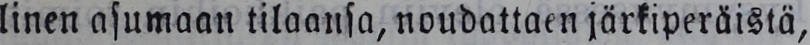linen asumaan tilaansa, noudattaen järkiperäistä,
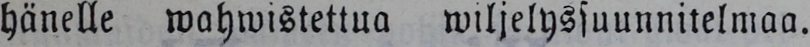hänelle wahwistettua wiljelyssuunnitelmaa.
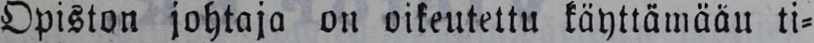Opiston johtaja on oikeutettu käyttämääu ti-
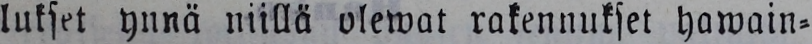lukset ynnä niillä olewat rakennukset hawain-
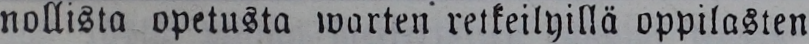nollista opetusta warten retkeilyillä oppilasten
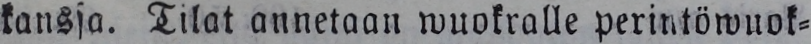kanssa. Tilat annetaan wuokralle perintöwuok-
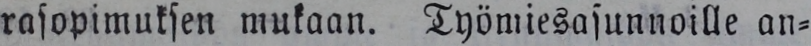rasopimuksen mukaan. Työmiesasunnoille an-
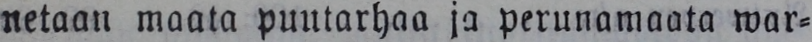netaan maata puutarhaa ja perunamaata war-
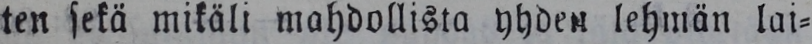ten sekä mikäli mahdollista yhden lehmän lai-
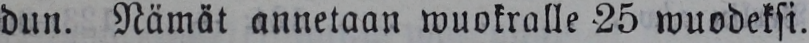dun. Nämät annetaan wuokralle 25 wuodeksi.
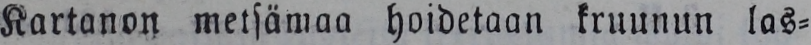Kartanon metsämaa hoidetaan kruunun las-
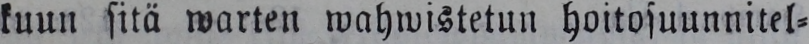kuun sitä warten wahwistetun hoitosuunnitel-
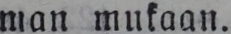man mukaan.
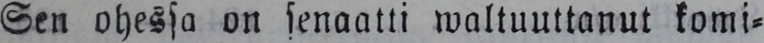Sen ohessa on senaatti waltuuttanut komi-
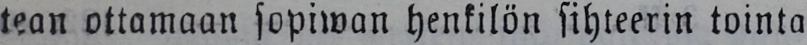tean ottamaan sopiwan henkilön sihteerin tointa
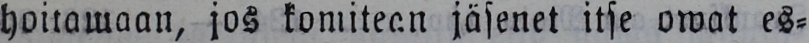hoitawaan, jos komitean jäsenet itse owat es-
